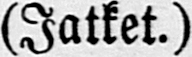(Jatket.)
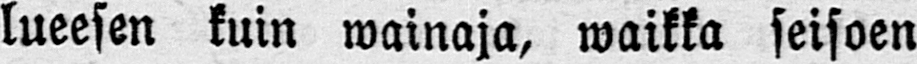lueesen kuin wainaja, waikka seisoen
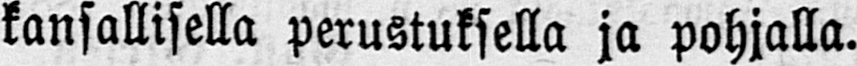kansallisella perustuksella ja pohjalla.
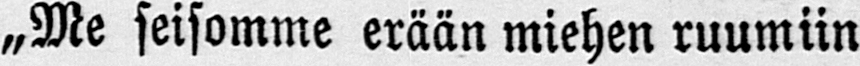„Me seisomme erään miehen ruumiin
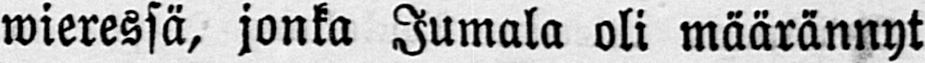wieressä, jonka Jumala oli määrännyt
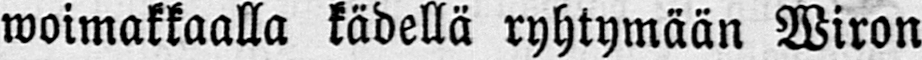woimakkaalla kädellä ryhtymään Wiron
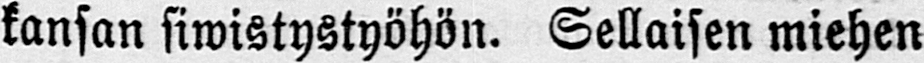kansan siwistystyöhön. Sellaisen miehen
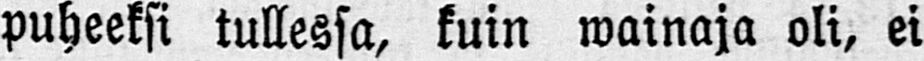puheeksi tullessa, kuin wainaja oli, ei
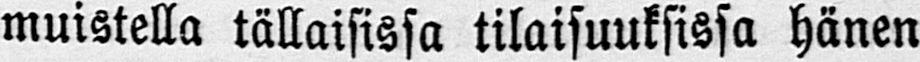muistella tällaisissa tilaisuuksissa hänen
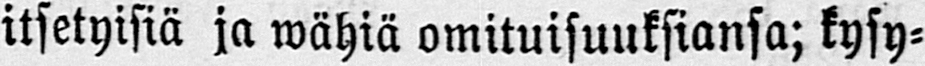itsetyisiä ja wähiä omituisuuksiansa; kysy-
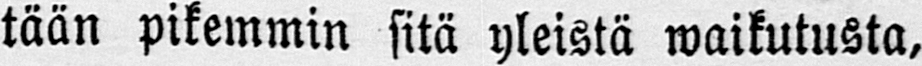tään pikemmin sitä yleistä waikutusta,
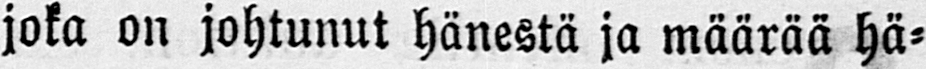joka on johtunut hänestä ja määrää hä-
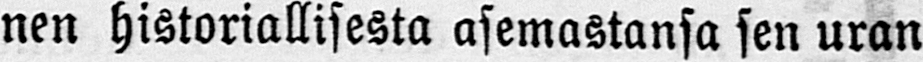nen historiallisesta asemastansa sen uran
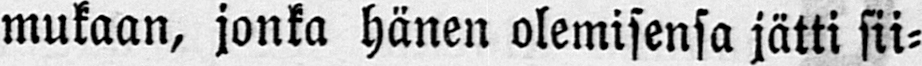mukaan, jonka hänen olemisensa jätti sii-
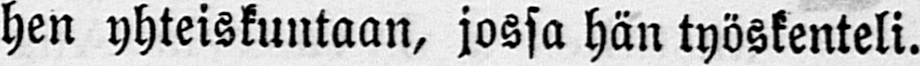hen yhteiskuntaan, jossa hän työskenteli.
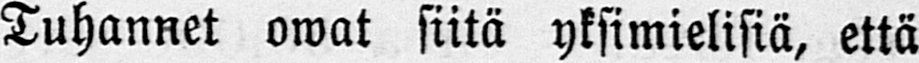Tuhannet owat siitä yksimielisiä, että
